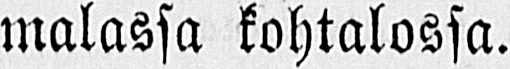malassa kohtalossa.
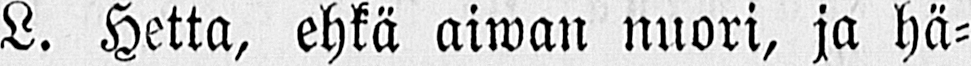L. Hetta, ehkä aiwan nuori, ja hä-
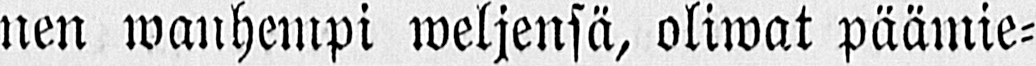nen wanhempi weljensä, oliwat päämie-
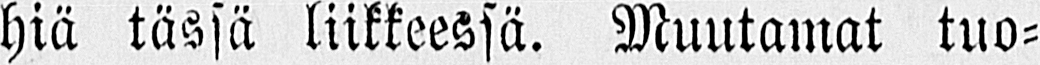hiä tässä liikkeessä. Muutamat tuo-
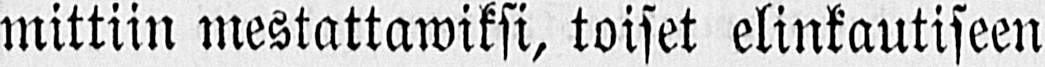mittiin mestattawiksi, toiset elinkautiseen
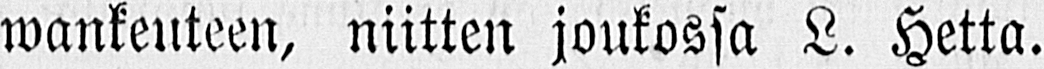wankeuteen, niitten joukossa L. Hetta.
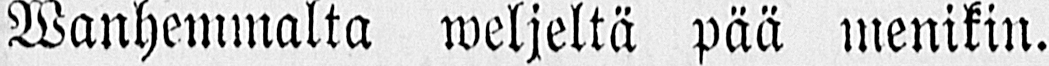Wanhemmalta weljeltä pää menikin.
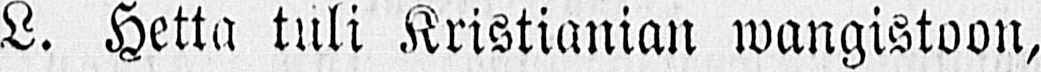L. Hetta tuli Kristianian wangistoon,
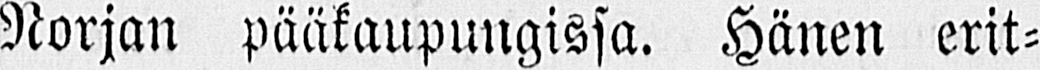Norjan pääkaupungissa. Hänen erit-
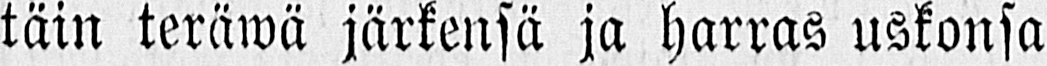täin teräwä järkensä ja harras uskonsa
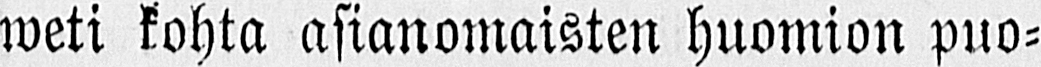weti kohta asianomaisten huomion puo-
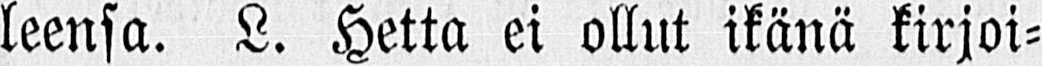leensa. L. Hetta ei ollut ikänä kirjoi-
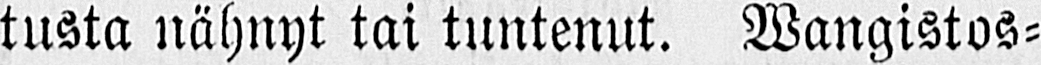tusta nähnyt tai tuntenut. Wangistos-
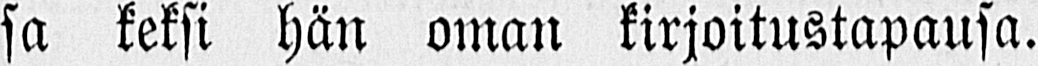sa keksi hän oman kirjoitustapausa.
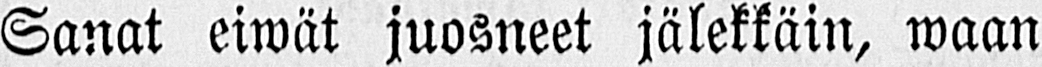Sanat eiwät juosneet jälekkäin, waan
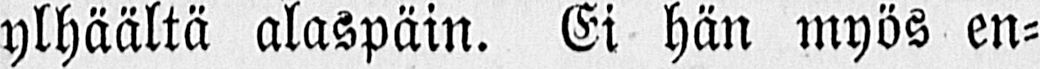ylhäältä alaspäin. Ei hän myös en-
